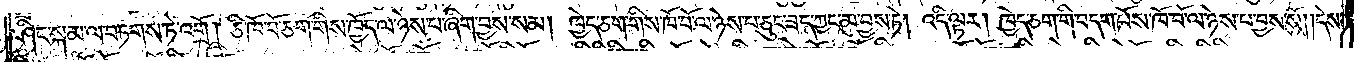ཤིང་སྐམ་ལ་བཏགས་ཏེ་འགྲོ། ཅི་ཁོ་བོ་ཅག་གིས་ཁྱོད་ལ་ཉེས་པ་ཞིག་བྱས་སམ། ཁྱེད་ཅག་གིས་ཁོ་བོ་ལ་ཉེས་པ་ཅུང་ཟད་ཀྱང་མ་བྱས་ཏེ། འདི་ལྟར། ཁྱེད་ཅག་གི་བདག་པོས་ཁོ་བོ་ལ་ཉེས་པ་བྱས་སོ། །དེས་
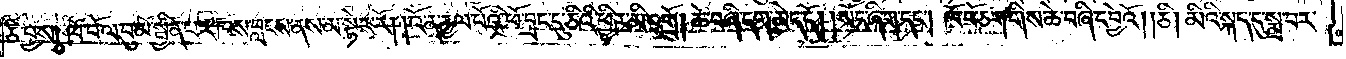ཅི་བྱས། ཁོ་བོ་ལ་བུ་མོ་སྦྱིན་པར་ཁས་བླངས་ནས་མ་སྟེར་རོ། །འོ་ན་རྒྱལ་པོའི་ཕོ་བྲང་དུ་ཅིའི་ཕྱིར་མི་འགྲོ། ཆེ་བཞི་དག་མེད་དོ། །སོང་ཞིག་དང༌། ཁོ་བོ་ཅག་གིས་ཆེ་བཞི་དབྱེའོ། །ཅི། མིའི་སྐད་དུ་སྨྲ་བར་
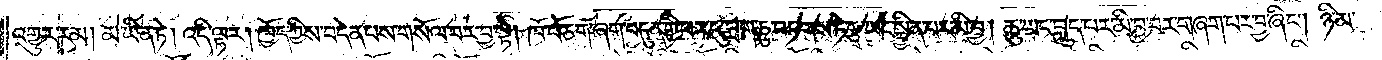འགྱུར་རམ། མ་ཡིན་ཏེ། འདི་ལྟར། ཁྱོད་ཀྱིས་བདེན་པས་གསོལ་བར་བྱ་སྟེ། ཁོ་བོ་ཅག་ཞག་བདུན་གྱི་བར་དུ་བྲག་ཏུ་བཏགས་ཏེ་རྩྭ་ཡང་སྦྱིན་པར་མི་བྱ། ཆུ་ཡང་བླུད་པར་མི་བྱ་བར་གཞག་པར་བྱ་ཞིང༌། ཉི་མ་
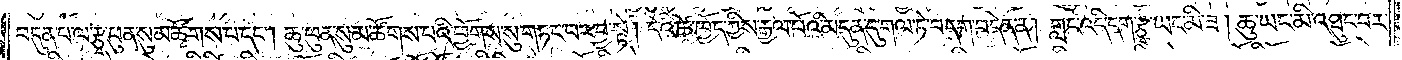བདུན་པ་ལ་རྩྭ་ཕུན་སུམ་ཚོགས་པ་དང༌། ཆུ་ཕུན་སུམ་ཚོགས་པའི་ཕྱོགས་སུ་གཏང་བར་བྱ་སྟེ། དེའི་ཚེ་ཁྱོད་ཀྱིས་རྒྱལ་པོའི་མདུན་དུ་གལ་ཏེ་བདག་བདེན་ན། གླང་འདི་དག་རྩྭ་ཡང་མི་ཟ། ཆུ་ཡང་མི་འཐུང་བར་
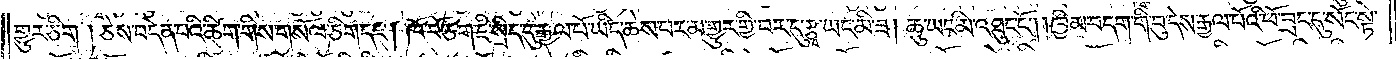གྱུར་ཅིག། ཅེས་བདེན་པའི་ཚིག་གིས་གསོལ་ཅིག་དང༌། ཁོ་བོ་ཅག་ཇི་སྲིད་དུ་རྒྱལ་པོ་ཡིད་ཆེས་པར་མ་གྱུར་གྱི་བར་དུ་རྩྭ་ཡང་མི་ཟ། ཆུ་ཡང་མི་འཐུང་ངོ༌། །ཁྱིམ་བདག་གི་བུ་དེས་རྒྱལ་པོའི་ཕོ་བྲང་དུ་སོང་སྟེ་
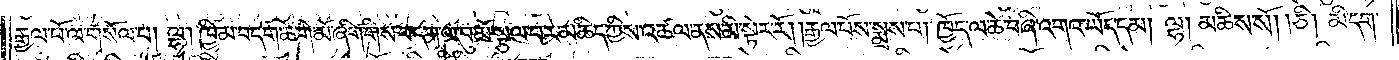རྒྱལ་པོ་ལ་གསོལ་པ། ལྷ། ཁྱིམ་བདག་ཆེ་གེ་མོ་ཞིག་གིས་བདག་ལ་བུ་མོ་སྩལ་བར་མཆིད་ཀྱིས་འཚལ་ནས་མི་སྟེར་རོ། །རྒྱལ་པོས་སྨྲས་པ། ཁྱོད་ལ་ཆེ་བཞི་འགའ་ཡོད་དམ། ལྷ། མཆིས་སོ། །ཅི། མི་དག་
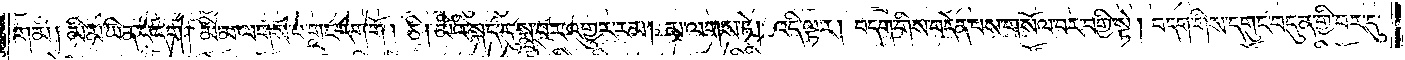གམ༑ མི་མ་ཡིན་པ་དག། མི་མ་ལགས་པ་གླང་དག་གོ། ཅི། མིའི་སྐད་དུ་སྨྲ་བར་འགྱུར་རམ། མ་ལགས་ཏེ། འདི་ལྟར། བདག་གིས་བདེན་པས་གསོལ་བར་བགྱི་སྟེ། བདག་གིས་དགུང་བདུན་གྱི་བར་དུ་
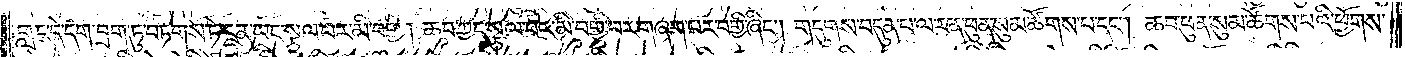གླང་དེ་དག་བྲག་ཏུ་བཏགས་ཏེ་ངན་ཡང་སྩལ་བར་མི་བགྱི། ཆབ་ཀྱང་སྩལ་བར་མི་བགྱི་བར་གཞག་པར་བགྱི་ཞིང༌། གདུགས་བདུན་པ་ལ་རན་ཕུན་སུམ་ཚོགས་པ་དང༌། ཆབ་ཕུན་སུམ་ཚོགས་པའི་ཕྱོགས་
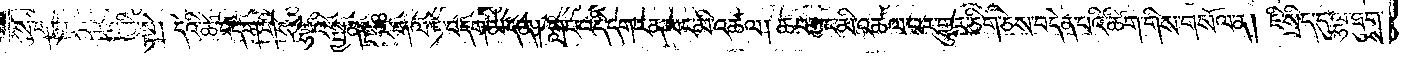སུ་གཏང་བར་བགྱི་སྟེ། དེའི་ཚེ་བདག་གིས་ལྷའི་སྤྱན་སྔར་གལ་ཏེ་བདག་མེད་ན། གླང་འདི་དག་རན་ཡང་མི་འཚལ། ཆབ་ཀྱང་མི་འཚལ་བར་གྱུར་ཅིག་ཅེས་བདེན་པའི་ཚིག་གིས་གསོལ་ན། ཇི་སྲིད་དུ་ལྷ་ཐུགས་
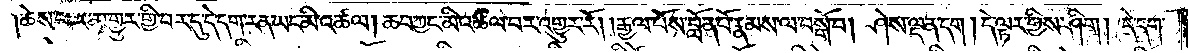ཆེས་པར་མ་གྱུར་གྱི་བར་དུ་དེ་དག་རན་ཡང་མི་འཚལ། ཆབ་ཀྱང་མི་འཚལ་བར་འགྱུར་རོ། །རྒྱལ་པོས་བློན་པོ་རྣམས་ལ་བསྒོ་བ། ཤེས་ལྡན་དག །དེ་ལྟར་གྱིས་ཤིག། དེ་དག་
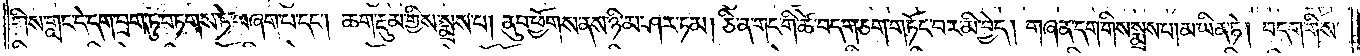གིས་གླང་དེ་དག་བྲག་ཏུ་བཏགས་ཏེ་བཞག་པ་དང༌། ཆག་རྡུམ་གྱིས་སྨྲས་པ། ནུབ་ཕྱོགས་ནས་ཉི་མ་ཤར་ཏམ། ཅི་ན་གང་གི་ཚེ་བདག་ཅག་གཏོང་བར་མི་བྱེད། གཞན་དག་གིས་སྨྲས་པ། མ་ཡིན་ཏེ། བདག་གིས་
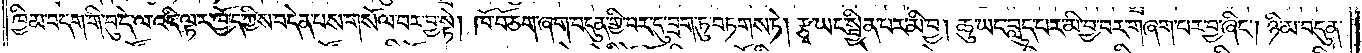ཁྱིམ་བདག་གི་བུ་དེ་ལ་འདི་ལྟར་ཁྱོད་ཀྱིས་བདེན་པས་གསོལ་བར་བྱ་སྟེ། ཁོ་བོ་ཅག་ཞག་བདུན་གྱི་བར་དུ་བྲག་ཏུ་བཏགས་ཏེ། རྩྭ་ཡང་སྦྱིན་པར་མི་བྱ། ཆུ་ཡང་བླུད་པར་མི་བྱ་བར་གཞག་པར་བྱ་ཞིང༌། ཉི་མ་བདུན་
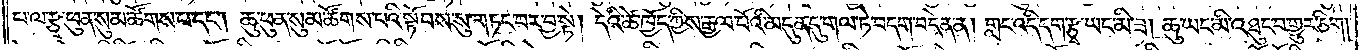པ་ལ་རྩྭ་ཕུན་སུམ་ཚོགས་པ་དང༌། ཆུ་ཕུན་སུམ་ཚོགས་པའི་སྟོབས་སུ་གཏང་བར་བྱ་སྟེ། དེའི་ཚེ་ཁྱོད་ཀྱིས་རྒྱལ་པོའི་མདུན་དུ་གལ་ཏེ་བདག་བདེན་ན། གླང་འདི་དག་རྩྭ་ཡང་མི་ཟ། ཆུ་ཡང་མི་འཐུང་བ་གྱུར་ཅིག །
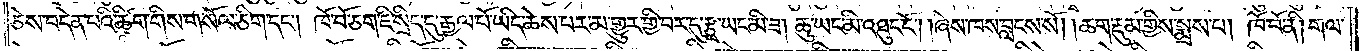ཅེས་བདེན་པའི་ཚིག་གིས་གསོལ་ཅིག་དང༌། ཁོ་བོ་ཅག་ཇི་སྲིད་དུ་རྒྱལ་པོ་ཡིད་ཆེས་པར་མ་གྱུར་གྱི་བར་དུ་རྩྭ་ཡང་མི་ཟ། ཆུ་ཡང་མི་འཐུང་ངོ༌། །ཞེས་ཁས་བླངས་སོ། །ཆག་རྡུམ་གྱིས་སྨྲས་པ། ཁོ་བོ་ནི། གལ་
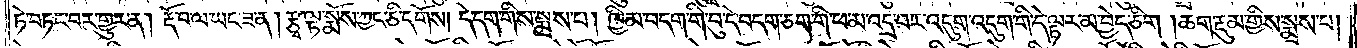ཏེ་བཏང་བར་གྱུར་ན། རྡོ་བ་ལ་ཡང་ཟ་ན། རྩྭ་ལྟ་སྨོས་ཀྱང་ཅི་དགོས། དེ་དག་གིས་སྨྲས་པ། ཁྱིམ་བདག་གི་བུ་དེ་བདག་ཅག་གི་ཕ་མ་འདྲ་བར་འདུག་འདུག་གི་དེ་ལྟར་མ་བྱེད་ཅིག །ཆག་རྡུམ་གྱིས་སྨྲས་པ།
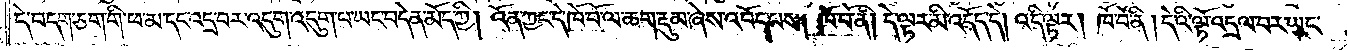དེ་བདག་ཅག་གི་ཕ་མ་དང་འདྲ་བར་འདུག་འདུག་པ་ཡང་བདེན་མོད་ཀྱི། འོན་ཀྱང་དེ་ཁོ་བོ་ལ་ཆག་རྡུམ་ཞེས་འབོད་པས། ཁོ་བོ་ནི། དེ་ལྟར་མི་འདོད་དེ། འདི་ལྟར། ཁོ་བོ་ནི། དེའི་ལྟོ་འདྲལ་བར་ཡང་
